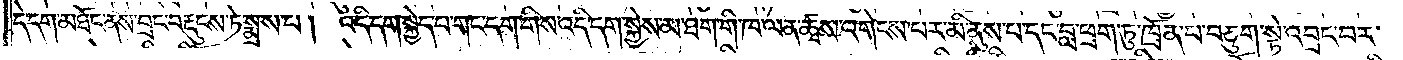དེ་དག་མཐོང་ནས་བྲང་བརྡུངས་ཏེ་སྨྲས་པ། འདི་དག་སྐྱེད་པ་གང་དག་གིས་འདི་དག་སྐྱེས་མ་ཐག་གི་ཁ་ལན་ཚྭས་འགེངས་པར་མི་ནུས་པ་དང་བླ་ཕྲག་ཏུ་ཁྲོན་པ་བཅུག་སྟེ་འབྲང་བར་
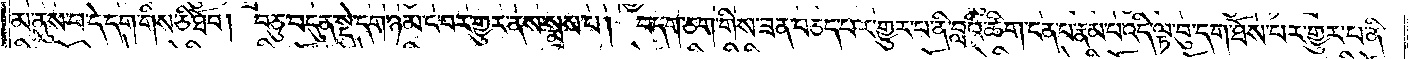མ་ནུས་པ་དེ་དག་གིས་ཅི་ཐོབ། བཅུ་བདུན་སྡེ་དག་ཉམ་ང་བར་གྱུར་ནས་སྨྲས་པ། བདག་ཅག་གིས་ཟན་བཅད་པར་གྱུར་པ་ནི་བླའི་ཚིག་ངན་པ་རྣམ་པ་འདི་ལྟ་བུ་དག་ཐོས་པར་གྱུར་པ་ནི་
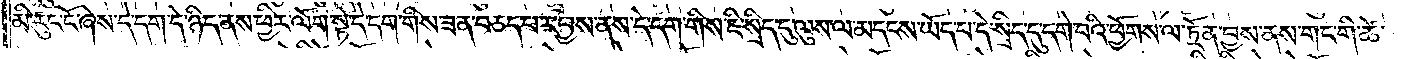མི་རུང་ངོ་ཞེས་དེ་དག་དེ་ཉིད་ནས་ཕྱིར་ལོག་སྟེ་དེ་དག་གིས་ཟན་བཅད་པར་བྱས་ནས་དེ་དག་གིས་ཇི་སྲིད་དུ་ལུས་ལ་མདངས་ཡོད་པ་དེ་སྲིད་དུ་དགེ་བའི་ཕྱོགས་ལ་ཏྲོན་བྱས་ནས་གང་གི་ཚེ་
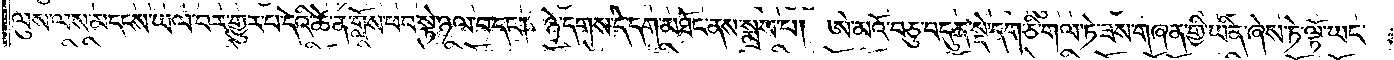ལུས་ལས་མདངས་ཡལ་བར་གྱུར་པ་དེའི་ཚེ་ན་གློས་ཕབ་སྟེ་ཉལ་བ་དང༌། ཉེ་དགས་དེ་དག་མཐོང་ནས་སྨྲས་པ། ཨེ་མའོ་བཅུ་བདུན་སྡེ་དག་ཅི་གལ་ཏེ་ཟས་གཞན་གྱི་ཡིན་ཞེས་ཏེ་ལྟོ་ཡང་
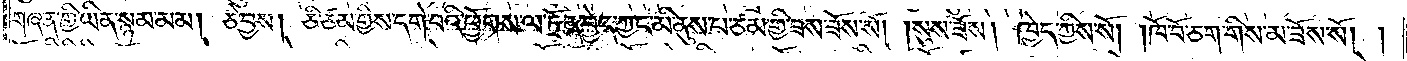གཞན་གྱི་ཡིན་སྙམ་མམ། ཅི་བྱས། ཅི་ཙམ་གྱིས་དགེ་བའི་ཕྱོགས་ལ་ཏྲོན་བྱེད་ཀྱང་མི་ནུས་པ་ཙམ་གྱི་ཟས་ཟོས་སོ། །སུས་ཟོས། ཁྱེད་ཀྱིས་སོ། །ཁོ་བོ་ཅག་གིས་མ་ཟོས་སོ། །
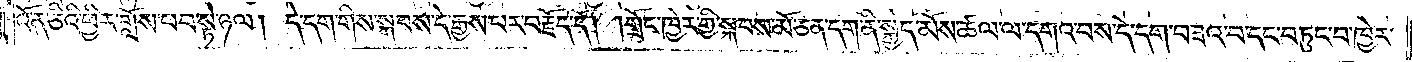འོ་ན་ཅིའི་ཕྱིར་གློས་ཕབ་སྟེ་ཉལ། དེ་དག་གིས་སྐབས་དེ་རྒྱས་པར་བརྗོད་དོ། །གྲོང་ཁྱེར་གྱི་སྐབས་མོ་ཅན་དག་ནི་སྐྱེད་མོས་ཚལ་ལ་དགའ་བས་དེ་དག་བཟའ་བ་དང་བཏུང་བ་ཁྱེར་
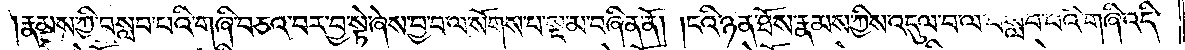རྣམས་ཀྱི་བསླབ་པའི་གཞི་བཅའ་བར་བྱ་སྟེ་ཞེས་བྱ་བ་ལ་སོགས་པ་སྔ་མ་བཞིན་ནོ། །ངའི་ཉན་ཐོས་རྣམས་ཀྱིས་འདུལ་བ་ལ་བསླབ་པའི་གཞི་འདི་
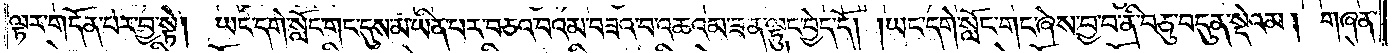ལྟར་གདོན་པར་བྱ་སྟེ། ཡང་དགེ་སློང་གང་དུས་མ་ཡིན་པར་བཅའ་བའམ་བཟའ་བ་འཆའམ་ཟ་ན་ལྟུང་བྱེད་དོ། །ཡང་དགེ་སློང་གང་ཞེས་བྱ་བ་ནི་བཅུ་བདུན་སྡེའམ། གཞན་
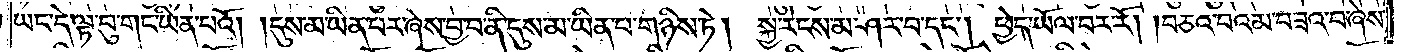ཡང་དེ་ལྟ་བུ་གང་ཡིན་པའོ། །དུས་མ་ཡིན་པར་ཞེས་བྱ་བ་ནི་དུས་མ་ཡིན་པ་གཉིས་ཏེ། སྐྱ་རེངས་མ་ཤར་བ་དང༌། ཕྱེད་ཡོལ་བར་རོ། །བཅའ་བའམ་བཟའ་བ་ཞེས་
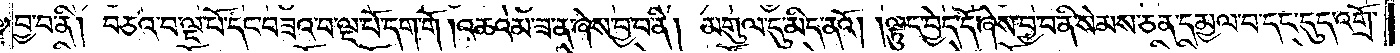བྱ་བ་ནི། བཅའ་བ་ལྔ་པོ་དང་བཟའ་བ་ལྔ་པོ་དག་གོ །འཆའམ་ཟ་ན་ཞེས་བྱ་བ་ནི། མགུལ་དུ་མིད་ནའོ། །ལྟུང་བྱེད་དོ་ཞེས་བྱ་བ་ནི་སེམས་ཅན་དམྱལ་བ་དང་དུད་འགྲོ་
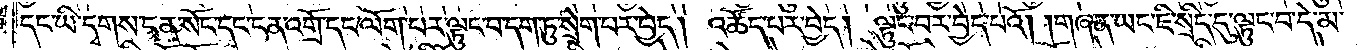དང་ཡི་དྭགས་ངན་སོང་དང་ངན་འགྲོ་དང་ལོག་པར་ལྟུང་བ་དག་ཏུ་སྲེག་པར་བྱེད། འཚོད་པར་བྱེད། ལྟུང་བར་བྱེད་པའོ། །གཞན་ཡང་ཇི་སྲིད་དུ་ལྟུང་བ་དེ་མ་
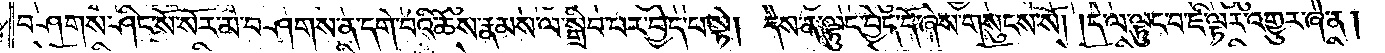བཤགས་ཤིང་སོ་སོར་མ་བཤགས་ན་དགེ་བའི་ཆོས་རྣམས་ལ་སྒྲིབ་པར་བྱེད་པ་སྟེ། དེས་ན་ལྟུང་བྱེད་དོ་ཞེས་གསུངས་སོ། །དེ་ལ་ལྟུང་བ་ཇི་ལྟར་འགྱུར་ཞེ་ན།
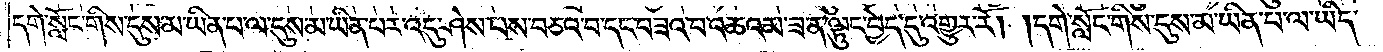དགེ་སློང་གིས་དུས་མ་ཡིན་པ་ལ་དུས་མ་ཡིན་པར་འདུ་ཤེས་པས་བཅའ་བ་དང་བཟའ་བ་འཆའམ་ཟ་ན་ལྟུང་བྱེད་དུ་འགྱུར་རོ། །དགེ་སློང་གིས་དུས་མ་ཡིན་པ་ལ་ཡིད་
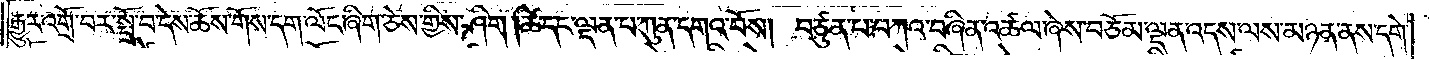རྒྱུར་འགྲོ་བར་སྤྲོ་བ་དེས་ཆོས་གོས་དག་ལོང་ཞིག་ཅེས་གྱིས་ཤིག །ཚེ་དང་ལྡན་པ་ཀུན་དགའ་བོས། བཙུན་པ་བཀའ་བཞིན་འཚལ་ཞེས་བཅོམ་ལྡན་འདས་ལས་མཉན་ནས་དགེ་
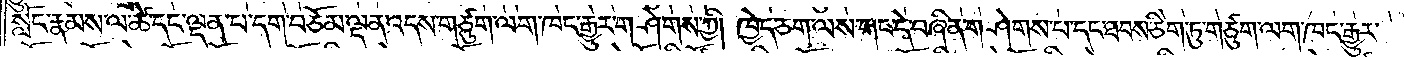སློང་རྣམས་ལ་ཚེ་དང་ལྡན་པ་དག་བཅོམ་ལྡན་འདས་གཙུག་ལག་ཁང་རྒྱུར་གཤེགས་ཀྱི། ཁྱེད་ཅག་ལས་གང་དེ་བཞིན་གཤེགས་པ་དང་ཐབས་ཅིག་ཏུ་གཙུག་ལག་ཁང་རྒྱུར་
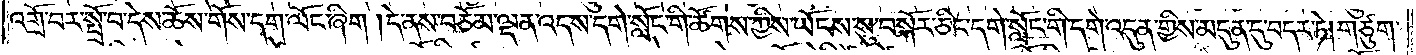འགྲོ་བར་སྤྲོ་བ་དེས་ཆོས་གོས་དག་ལོང་ཞིག །དེ་ནས་བཅོམ་ལྡན་འདས་དགེ་སློང་གི་ཚོགས་ཀྱིས་ཡོངས་སུ་བསྐོར་ཅིང་དགེ་སློང་གི་དགེ་འདུན་གྱིས་མདུན་དུ་བདར་ཏེ། གཙུག་
